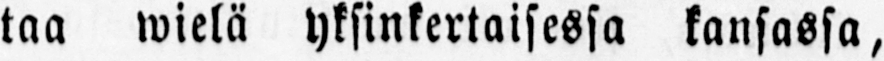taa wielä yksinkertaisessa kansassa,
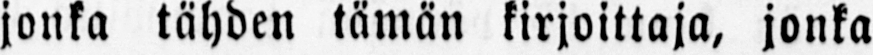jonka tähden tämän kirjoittaja, jonka
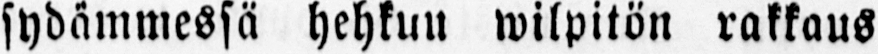sydämmessä hehkuu wilpitön rakkaus
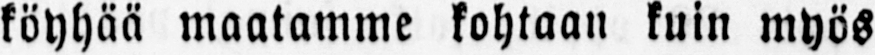köyhää maatame kohtaan kuin myös
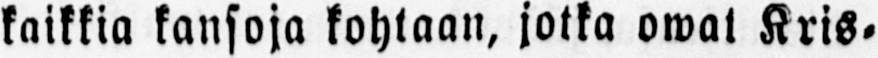kaikkia kansoja kohtaan, jotka owat Kris-
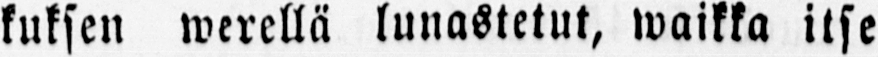kuksen werellä lunastetut, waikka itse
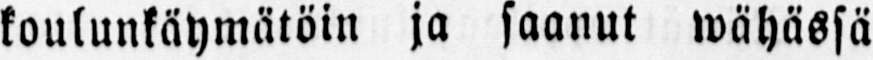koulunkäymätöin ja saanut wähässä
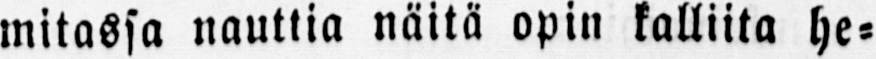mitassa nauttia näitä opin kalliita he-
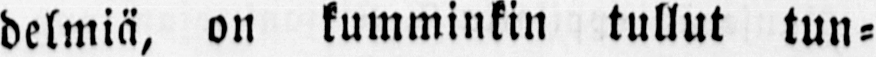delmiä, on kumminkin tullut tun-
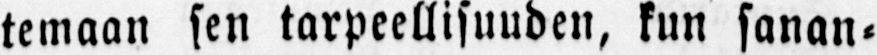temaan sen tarpeellisuuden, kun sanan-
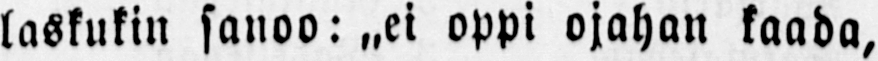laskukin sanoo: „ei oppi ojahan kaada,
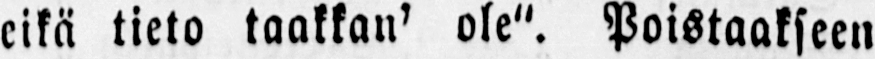eikä tieto taakkan' ole". Poistaakseen
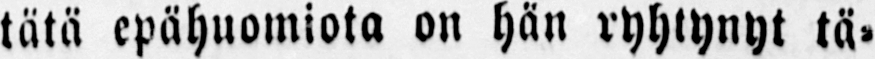tätä epähuomiota on hän ryhtynyt tä-
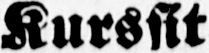Kurssit.
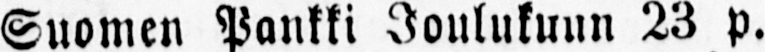Suomen Pankki Joulukuun 23 p.
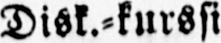Disk.-kurssi
